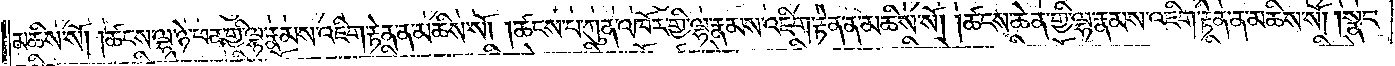མཆིས་སོ། །ཚངས་ལྷ་ཉེ་ཕན་གྱི་ལྷ་རྣམས་འཇིག་རྟེན་ན་མཆིས་སོ། །ཚངས་པ་ཀུན་འཁོར་གྱི་ལྷ་རྣམས་འཇིག་རྟེན་ན་མཆིས་སོ། །ཚངས་ཆེན་གྱི་ལྷ་རྣམས་འཇིག་རྟེན་ན་མཆིས་སོ། །སྣང་
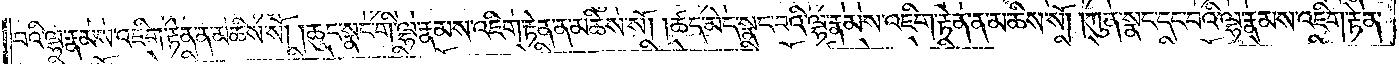བའི་ལྷ་རྣམས་འཇིག་རྟེན་ན་མཆིས་སོ། །ཆུང་སྣང་གི་ལྷ་རྣམས་འཇིག་རྟེན་ན་མཆིས་སོ། །ཚད་མེད་སྣང་བའི་ལྷ་རྣམས་འཇིག་རྟེན་ན་མཆིས་སོ། །ཀུན་སྣང་དང་བའི་ལྷ་རྣམས་འཇིག་རྟེན་
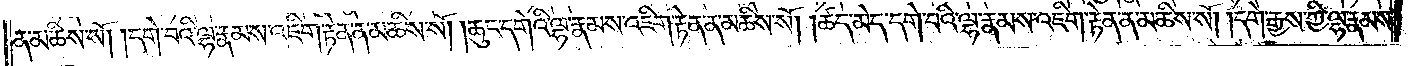ན་མཆིས་སོ། །དགེ་བའི་ལྷ་རྣམས་འཇིག་རྟེན་ན་མཆིས་སོ། །ཆུང་དགེའི་ལྷ་རྣམས་འཇིག་རྟེན་ན་མཆིས་སོ། །ཚད་མེད་དགེ་བའི་ལྷ་རྣམས་འཇིག་རྟེན་ན་མཆིས་སོ། །དགེ་རྒྱས་ཀྱི་ལྷ་རྣམས་
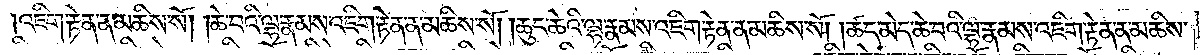འཇིག་རྟེན་ན་མཆིས་སོ། །ཆེ་བའི་ལྷ་རྣམས་འཇིག་རྟེན་ན་མཆིས་སོ། །ཆུང་ཆེའི་ལྷ་རྣམས་འཇིག་རྟེན་ན་མཆིས་སོ། །ཚད་མེད་ཆེ་བའི་ལྷ་རྣམས་འཇིག་རྟེན་ན་མཆིས་
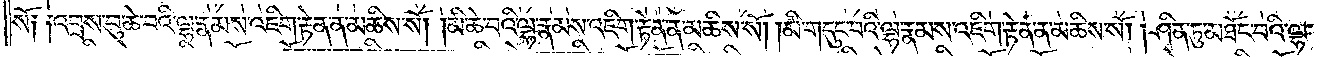སོ༑ ༑འབྲས་བུ་ཆེ་བའི་ལྷ་རྣམས་འཇིག་རྟེན་ན་མཆིས་སོ། །མི་ཆེ་བའི་ལྷ་རྣམས་འཇིག་རྟེན་ན་མཆིས་སོ། །མི་གདུང་བའི་ལྷ་རྣམས་འཇིག་རྟེན་ན་མཆིས་སོ། །ཤིན་ཏུ་མཐོང་བའི་ལྷ་
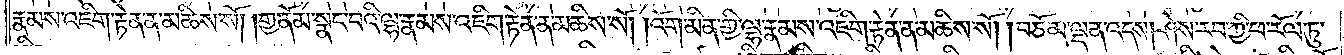རྣམས་འཇིག་རྟེན་ན་མཆིས་སོ། །གྱ་ནོམ་སྣང་བའི་ལྷ་རྣམས་འཇིག་རྟེན་ན་མཆིས་སོ། །འོག་མིན་གྱི་ལྷ་རྣམས་འཇིག་རྟེན་ན་མཆིས་སོ། །བཅོམ་ལྡན་འདས། ཤེས་རབ་ཀྱི་ཕ་རོལ་ཏུ་
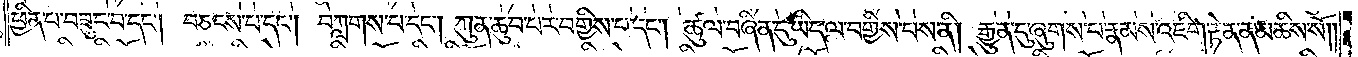ཕྱིན་པ་བཟུང་བ་དང༌། བཅངས་པ་དང༌། བཀླགས་པ་དང༌། ཀུན་ཆུབ་པར་བགྱིས་པ་དང༌། ཚུལ་བཞིན་དུ་ཡིད་ལ་བགྱིས་བས་ནི། རྒྱུན་དུ་ཞུགས་པ་རྣམས་འཇིག་རྟེན་ན་མཆིས་སོ། །
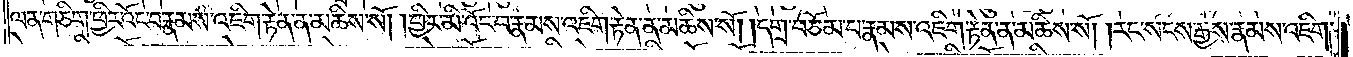ལན་གཅིག་ཕྱིར་འོང་བ་རྣམས་འཇིག་རྟེན་ན་མཆིས་སོ། །ཕྱིར་མི་འོང་བ་རྣམས་འཇིག་རྟེན་ན་མཆིས་སོ། །དགྲ་བཅོམ་པ་རྣམས་འཇིག་རྟེན་ན་མཆིས་སོ། །རང་སངས་རྒྱས་རྣམས་འཇིག་
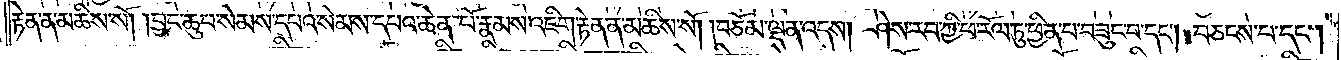རྟེན་ན་མཆིས་སོ། །བྱང་ཆུབ་སེམས་དཔའ་སེམས་དཔའ་ཆེན་པོ་རྣམས་འཇིག་རྟེན་ན་མཆིས་སོ། །བཅོམ་ལྡན་འདས། ཤེས་རབ་ཀྱི་ཕ་རོལ་ཏུ་ཕྱིན་པ་བཟུང་བ་དང༌། བཅངས་པ་དང༌།
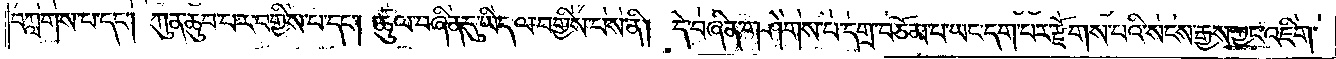བཀླགས་པ་དང༌། ཀུན་ཆུབ་པར་བགྱིས་པ་དང༌། ཚུལ་བཞིན་དུ་ཡིད་ལ་བགྱིས་པས་ནི། དེ་བཞིན་གཤེགས་པ་དགྲ་བཅོམ་པ་ཡང་དག་པར་རྫོགས་པའི་སངས་རྒྱས་ཀྱང་འཇིག་
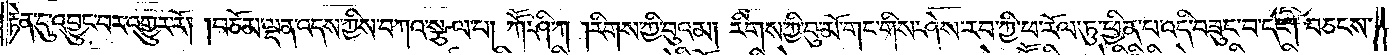རྟེན་དུ་འབྱུང་བར་འགྱུར་རོ། །བཅོམ་ལྡན་འདས་ཀྱིས་བཀའ་སྩལ་པ། ཀཽ་ཤི་ཀ །རིགས་ཀྱི་བུའམ། རིགས་ཀྱི་བུ་མོ་གང་གིས་ཤེས་རབ་ཀྱི་ཕ་རོལ་ཏུ་ཕྱིན་པ་འདི་བཟུང་བ་དང༌། བཅངས་
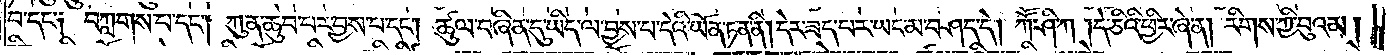པ་དང༌། བཀླགས་པ་དང༌། ཀུན་ཆུབ་པར་བྱས་པ་དང༌། ཚུལ་བཞིན་དུ་ཡིད་ལ་བྱས་པ་དེའི་ཡོན་ཏན་ནི། དེར་ཟད་པར་ཡང་མ་བཤད་དེ། ཀཽ་ཤི་ཀ །དེ་ཅིའི་ཕྱིར་ཞེ་ན། རིགས་ཀྱི་བུའམ་
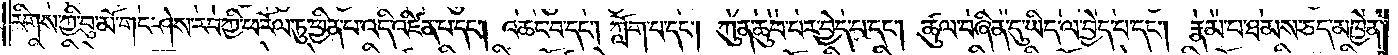རིགས་ཀྱི་བུ་མོ་གང་ཤེས་རབ་ཀྱི་ཕ་རོལ་ཏུ་ཕྱིན་པ་འདི་འཛིན་པ་དང༌། འཆང་བ་དང༌། ཀློག་པ་དང༌། ཀུན་ཆུབ་པར་བྱད་པ་དང༌། ཚུལ་བཞིན་དུ་ཡིད་ལ་བྱེད་པ་དང༌། རྣམ་པ་ཐམས་ཅད་མཁྱེན་
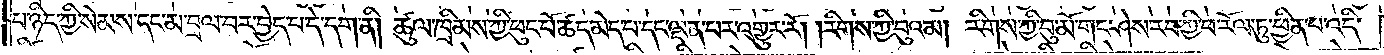པ་ཉིད་ཀྱི་སེམས་དང་མ་བྲལ་བར་བྱེད་པ་དེ་དག་ནི། ཚུལ་ཁྲིམས་ཀྱི་ཕུང་པོ་ཚད་མེད་པ་དང་ལྡན་པར་འགྱུར་རོ། །རིགས་ཀྱི་བུའམ། རིགས་ཀྱི་བུ་མོ་གང་ཤེས་རབ་ཀྱི་ཕ་རོལ་ཏུ་ཕྱིན་པ་འདི་
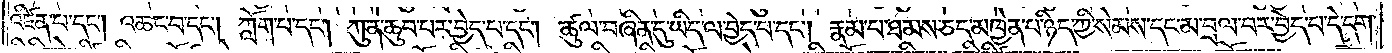འཛིན་པ་དང༌། འཆང་བ་དང༌། ཀློག་པ་དང༌། ཀུན་ཆུབ་པར་བྱེད་པ་དང༌། ཚུལ་བཞིན་དུ་ཡིད་ལ་བྱེད་པ་དང༌། རྣམ་པ་ཐམས་ཅད་མཁྱེན་པ་ཉིད་ཀྱི་སེམས་དང་མ་བྲལ་བར་བྱེད་པ་དེ་དག་
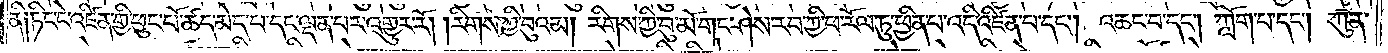ནི་ཏིང་ངེ་འཛིན་གྱི་ཕུང་པོ་ཚད་མེད་པ་དང་ལྡན་པར་འགྱུར་རོ། །རིགས་ཀྱི་བུའམ་རིགས་ཀྱི་བུ་མོ་གང་ཤེས་རབ་ཀྱི་ཕ་རོལ་ཏུ་ཕྱིན་པ་འདི་འཛིན་པ་དང༌། འཆང་བ་དང༌། ཀློག་པ་དང༌། ཀུན་
